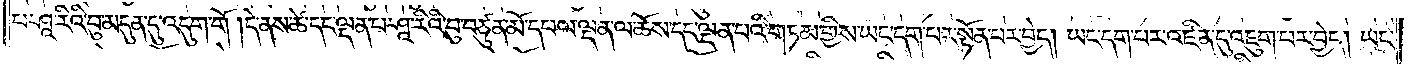པ་ཤཱ་རིའི་བུ་མདུན་དུ་འདུག་གོ །དེ་ནས་ཚེ་དང་ལྡན་པ་ཤཱ་རིའི་བུ་བཙུན་མོ་དཔལ་ལྡན་ལ་ཆོས་དང་ལྡན་པའི་གཏམ་གྱིས་ཡང་དག་པར་སྟོན་པར་བྱེད། ཡང་དག་པར་འཛིན་དུ་འཇུག་པར་བྱེད། ཡང་
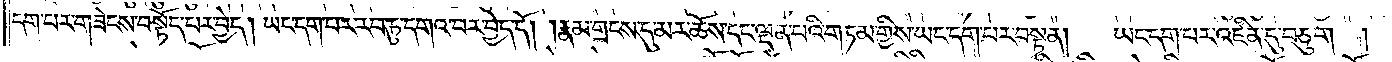དག་པར་གཟེངས་བསྟོད་པར་བྱེད། ཡང་དག་པར་རབ་ཏུ་དགའ་བར་བྱེད་དོ། །རྣམ་གྲངས་དུ་མར་ཆོས་དང་ལྡན་པའི་གཏམ་གྱིས་ཡང་དག་པར་བསྟན། ཡང་དག་པར་འཛིན་དུ་བཅུག །
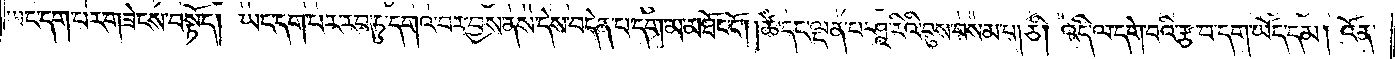ཡང་དག་པར་གཟེངས་བསྟོད། ཡང་དག་པར་རབ་ཏུ་དགའ་བར་བྱས་ནས་དེས་བདེན་པ་དག་མ་མཐོང་ངོ༌། ཚེ་དང་ལྡན་པ་ཤཱ་རིའི་བུས་བསམ་པ། ཅི། འདི་ལ་དགེ་བའི་རྩ་བ་དག་ཡོད་དམ། འོན་
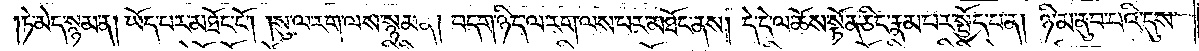ཏེ་མེད་སྙམ་ན། ཡོད་པར་མཐོང་ངོ༌། །སུ་ལ་རག་ལས་སྙམ་ན། བདག་ཉིད་ལ་རག་ལས་པར་མཐོང་ནས། དེ་དེ་ལ་ཆོས་སྟོན་ཅིང་རྣམ་པར་སྤྱོད་པ་ན། ཉི་མ་ནུབ་པའི་དུས་
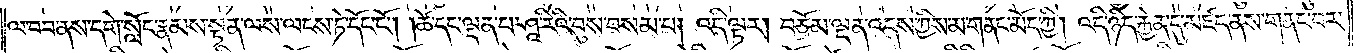ལ་བབ་ནས་དགེ་སློང་རྣམས་སྟན་ལས་ལངས་ཏེ་དོང་ངོ༌། །ཚེ་དང་ལྡན་པ་ཤཱ་རིའི་བུས་བསམ་པ། འདི་ལྟར། བཅོམ་ལྡན་འདས་ཀྱིས་མ་གནང་མོད་ཀྱི། འདི་ཉིད་རྐྱེན་དུ་མཛད་ནས་གནང་བར་
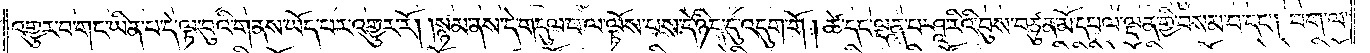འགྱུར་བ་གང་ཡིན་པ་དེ་ལྟ་བུའི་གནས་ཡོད་པར་འགྱུར་རོ། །སྙམ་ནས་དེ་གདུལ་བ་ལ་ལྟོས་པས་དེ་ཉིད་དུ་འདུག་གོ །ཚེ་དང་ལྡན་པ་ཤཱ་རིའི་བུས་བཙུན་མོ་དཔལ་ལྡན་གྱི་བསམ་པ་དང༌། བག་ལ་
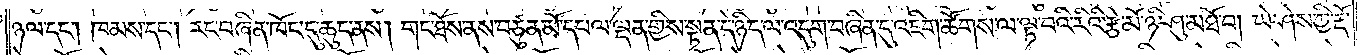ཉལ་དང༌། ཁམས་དང༌། རང་བཞིན་ཁོང་དུ་ཆུད་ནས། གང་ཐོས་ནས་བཙུན་མོ་དཔལ་ལྡན་གྱིས་སྟན་དེ་ཉིད་ལ་འདུག་བཞིན་དུ་འཇིག་ཚོགས་ལ་ལྟ་བའི་རིའི་རྩེ་མོ་ཉི་ཤུ་མཐོ་བ། ཡེ་ཤེས་ཀྱི་རྡོ་
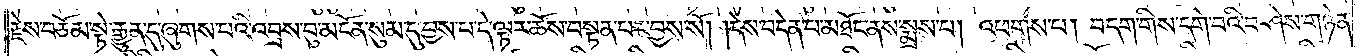རྗེས་བཅོམ་སྟེ་རྒྱུན་དུ་ཞུགས་པའི་འབྲས་བུ་མངོན་སུམ་དུ་བྱས་པ་དེ་ལྟར་ཆོས་བསྟན་པར་བྱས་སོ། །དེས་བདེན་པ་མཐོང་ནས་སྨྲས་པ། འཕགས་པ། བདག་གིས་དགེ་བའི་བཤེས་གཉེན་
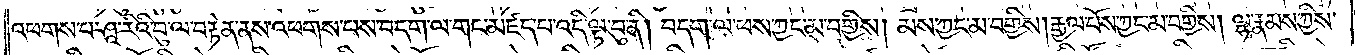འཕགས་པ་ཤཱ་རིའི་བུ་ལ་བརྟེན་ནས་འཕགས་པས་བདག་ལ་གང་མཛད་པ་འདི་ལྟ་བུ་ནི། བདག་ལ་ཕས་ཀྱང་མ་བགྱིས། མས་ཀྱང་མ་བགྱིས། རྒྱལ་པོས་ཀྱང་མ་བགྱིས། ལྷ་རྣམས་ཀྱིས་
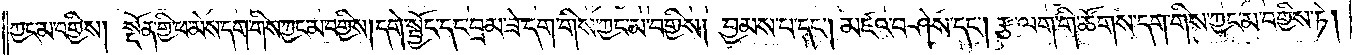ཀྱང་མ་བགྱིས། སྔོན་གྱི་ཕ་མེས་དག་གིས་ཀྱང་མ་བགྱིས། དགེ་སྦྱོང་དང་བྲམ་ཟེ་དག་གིས་ཀྱང་མ་བགྱིས། བྱམས་པ་དང༌། མཛའ་བཤེས་དང༌། རྩ་ལག་གི་ཚོགས་དག་གིས་ཀྱང་མ་བགྱིས་ཏེ་
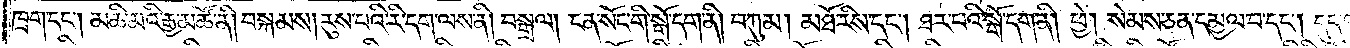ཁྲག་དང༌། མཆི་མའི་རྒྱ་མཚོ་ནི། བསྐམས། རུས་པའི་རི་དག་ལས་ནི། བསྒྲལ། ངན་སོང་གི་སྒོ་དག་ནི། བཀུམ། མཐོ་རིས་དང༌། ཐར་པའི་སྒོ་དག་ནི། ཕྱེ། སེམས་ཅན་དམྱལ་བ་དང༌། དུད་
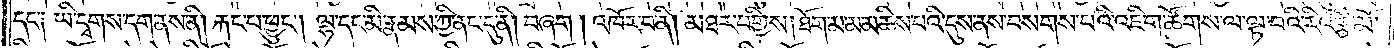དང་༑ ཡི་དྭགས་དག་ནས་ནི། རྐང་པ་ཕྱུང༌། ལྷ་དང་མི་རྣམས་ཀྱི་ནང་དུ་ནི། བཞག །འཁོར་བ་ནི། མཐར་བགྱིས། ཐོག་མ་མ་མཆིས་པའི་དུས་ནས་བསགས་པའི་འཇིག་ཚོགས་ལ་ལྟ་བའི་རིའི་རྩེ་མོ་
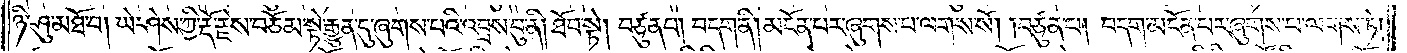ཉི་ཤུ་མཐོ་བ། ཡེ་ཤེས་ཀྱི་རྡོ་རྗེས་བཅོམ་སྟེ་རྒྱུན་དུ་ཞུགས་པའི་འབྲས་བུ་ནི། ཐོབ་སྟེ། བཙུན་པ། བདག་ནི། མངོན་པར་ཞུགས་པ་ལགས་སོ། །བཙུན་པ། བདག་མངོན་པར་ཞུགས་པ་ལགས་ཏེ་
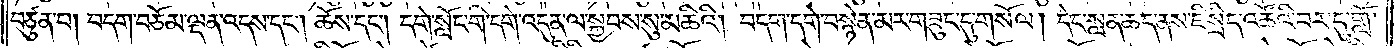བཙུན་པ། བདག་བཅོམ་ལྡན་འདས་དང༌། ཆོས་དང༌། དགེ་སློང་གི་དགེ་འདུན་ལ་སྐྱབས་སུ་མཆིའི། བདག་དགེ་བསྙེན་མར་གཟུང་དུ་གསོལ། དེང་སླན་ཆད་ནས་ཇི་སྲིད་འཚོའི་བར་དུ་གློ་
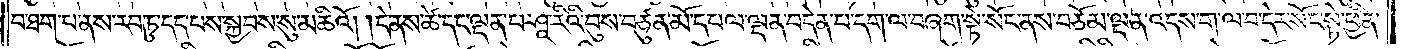བ་ཐག་པ་ནས་རབ་ཏུ་དད་པས་སྐྱབས་སུ་མཆིའོ། །དེ་ནས་ཚེ་དང་ལྡན་པ་ཤཱ་རིའི་བུས་བཙུན་མོ་དཔལ་ལྡན་བདེན་པ་དག་ལ་བཞག་སྟེ་སོང་ནས་བཅོམ་ལྡན་འདས་ག་ལ་བ་དེར་སོང་སྟེ་ཕྱིན་
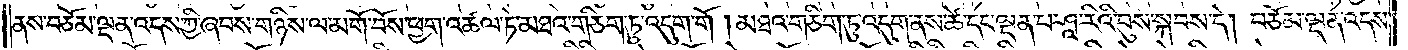ནས་བཅོམ་ལྡན་འདས་ཀྱི་ཞབས་གཉིས་ལ་མགོ་བོས་ཕྱག་འཚལ་ཏེ་མཐའ་གཅིག་ཏུ་འདུག་གོ །མཐའ་གཅིག་ཏུ་འདུག་ནས་ཚེ་དང་ལྡན་པ་ཤཱ་རིའི་བུས་སྐབས་དེ། བཅོམ་ལྡན་འདས་
